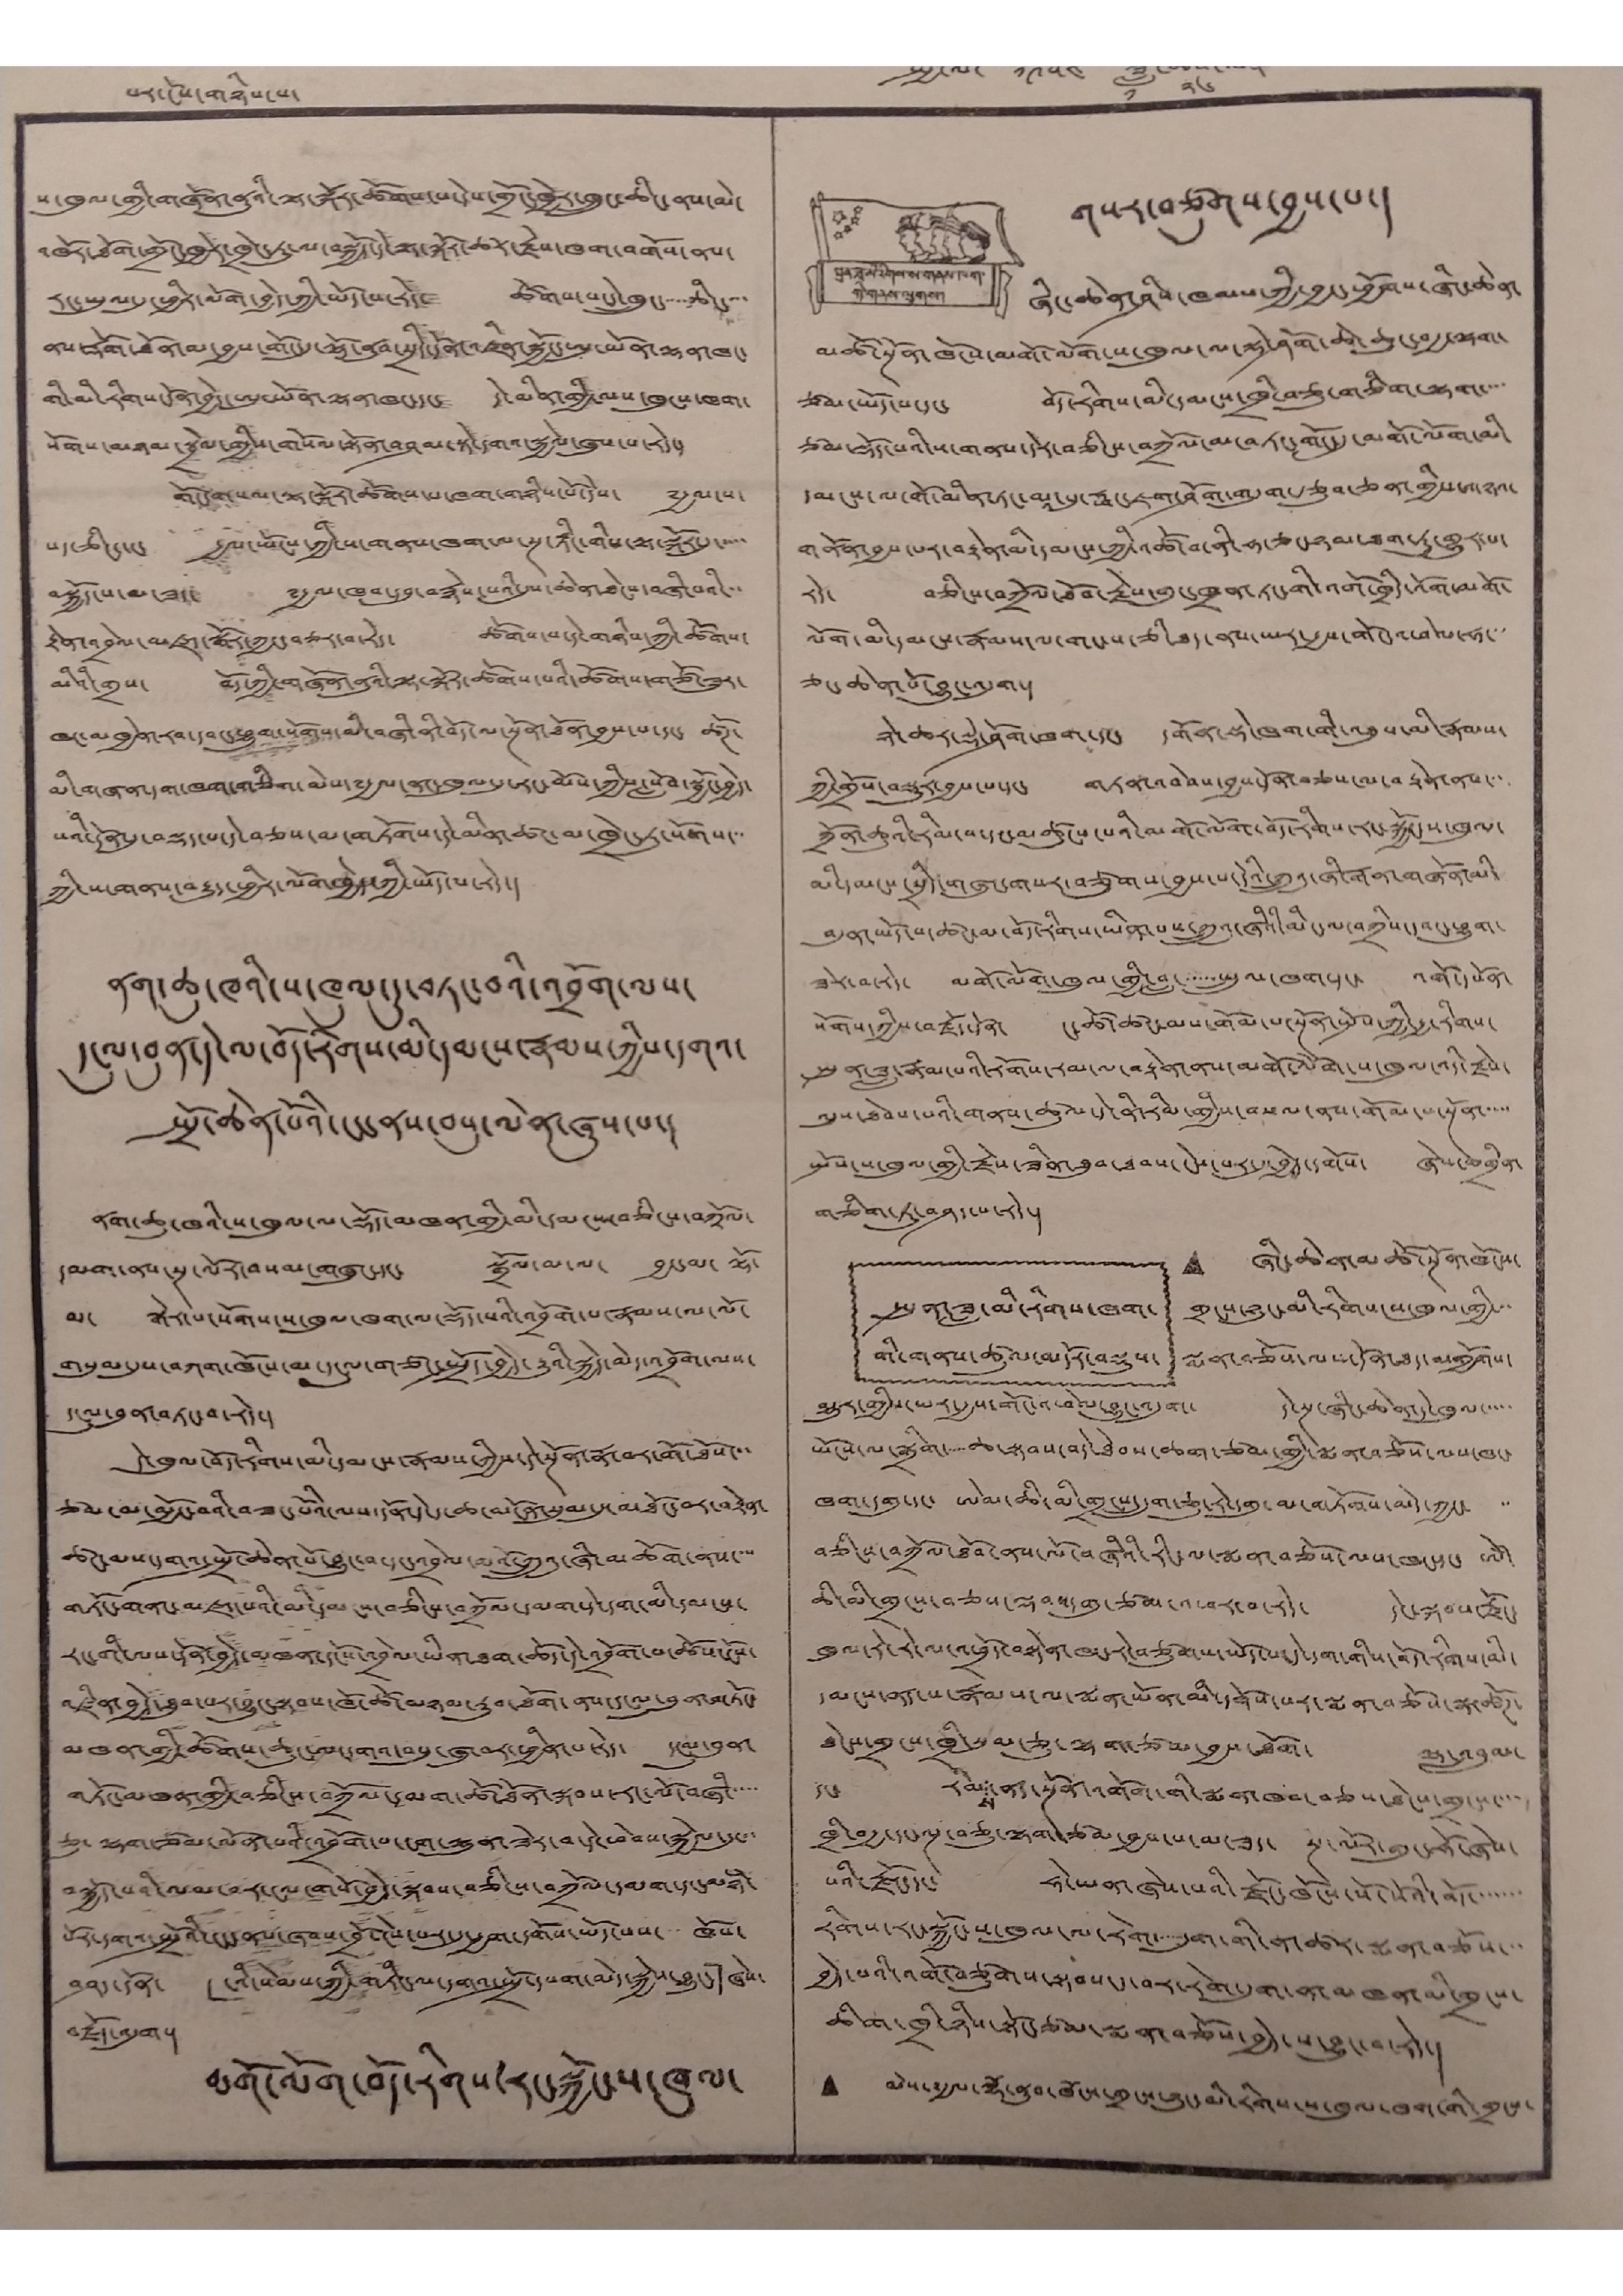པར་ངོས་གཉིས་པ་ སྤྱི་ལོ་༡༩༥༤་ཟླ་༡་ཚེས་༢༦་ལ་
ས་ཁུལ་གྱི་གཞོན་ནུའི་ལྟ་སྐོར་ཚོགས་པ་དེས་གྲོང་ཁྱེར་ཁྲུང་ཆིང་ནས་མེ་
འཁོར་ཐོག་གྲོང་ཁྱེར་ཁྲེང་ཏུ་ལ་བསྐྱོད་དེ་ལྟ་སྐོར་ཚར་རྗེས་ཁག་བགོས་ནས་
རང་ཡུལ་དུ་ཕྱིར་ལོག་བྱེད་ཀྱི་ཡོད་པ་རེད་ ཚོགས་པ་དེ་ཁྲུང་ཆིང་་
ནས་རྡོག་ཐོན་མ་བྱས་གོང་དུ་ལྷོ་ནུབ་སྲིད་དོན་འཛིན་སྐྱོང་ཨུ་ཡོན་ལྷན་ཁང་
གི་མི་རིགས་དོན་བྱེད་ཨུ་ཡོན་ལྷན་ཁང་དང་ དེ་མིན་གྱི་ལས་ཁུངས་ཁག་
སོགས་མཉམ་སྦྲེལ་གྱིས་གསོལ་སྟོན་བཤམ་སྟེ་དགའ་སྐྱེལ་ཞུས་པ་རེད་།
གོང་གསལ་ལྟ་སྐོར་ཚོགས་པ་ཁག་གཉིས་པོ་དེས་ ༸རྒྱལ་ས་
པད་ཅིང་དང་ རྒྱལ་ཡོངས་ཀྱི་ས་གནས་ཁག་ལ་སྔ་རྟིང་གིས་ལྟ་སྐོར་དུ་་་་་
བསྐྱོད་པ་མ་ཟད་ ༸རྒྱལ་ཁབ་དབུ་བརྙེས་པའི་དུས་ཆེན་ཐེངས་བཞི་པའི་་་
རྟེན་འབྲེལ་མཛད་སྒོར་ཀྱང་བཅར་བ་རེད་ ཚོགས་པ་དེ་གཉིས་ཀྱི་ཚོགས་
མིའི་གྲས་ བོད་ཀྱི་གཞོན་ནུའི་ལྟ་སྐོར་ཚོགས་པའི་ཚོགས་གཙོ་ཟུར་
ཁང་མཁྱེནན་རབ་དབང་ཕྱུག་སོགས་མི་བཞི་ནི་བོད་ལ་སྔོན་ཐོན་བྱས་པ་དང་ ཚོཊ་
མི་གཞན་དག་གཅིག་མེས་༸རྒྱལ་ནང་ཁུལ་དུ་རང་མོས་ཀྱིས་སློབ་སྦྱོང་བྱེད་
པའི་དོན་དུ་བསྡད་པ་དེ་བཅས་མ་གཏོགས་དེ་མིན་ཚང་མ་ཁྲེང་ཏུ་སོགས་་་
ཀྱི་ས་གནས་བརྒྱུད་ཕྱིར་ལོག་ཁྱེད་ཀྱི་ཡོད་པ་རེད་།
ནག་ཆུ་ཁའི་ས་ཁུལ་དུ་བཏང་བའི་འབྲོག་ལས་
དངུལ་བུན་དེ་ལ་བོད་རིགས་མི་དམངས་རྣམས་ཀྱིས་དགའ་
སྤྲོ་ཆེན་པོའི་ངང་ནས་བསུ་ལེན་ཞུས་པ་།
ནག་ཆུ་ཁའི་ས་ཁུལ་ལ་སྡོད་མཁན་གྱི་མི་དམངས་བཅིངས་བཀྲོལ་
དམག་ནས་སྔ་ལོར་བསམ་གཞུང་དང་ སྒྲོལ་མ་ལ་ བྱང་མ་ ལྷོ་
མ་ སྒེར་པ་སོགས་ས་ཁུལ་ཁག་ལ་སྡོད་སའི་འབྲོག་པ་རྣམས་ལ་ལོ་
གསུམ་དུས་བཀག་ཁོངས་མ་དངུལ་གཙང་སྤྲོད་བྱེད་རྒྱུའི་སྐྱེད་མེད་འབྲོག་ལས་
དངུལ་བུན་བཏང་བ་རེད་།
དེ་ཁུལ་བོད་རིགས་མི་དམངས་རྣམས་ཀྱིས་དེ་སྔོན་རྣ་བར་གོ་ཐོས་་་
ཙམ་མ་མྱོང་བའི་བཟང་པོའི་ལས་དོན་དེ་ད་ཆ་མངོན་སུམ་དུ་མཐོང་བར་བརྟེན་
ཚང་མས་དགའ་སྤྲོ་ཆེནཔོ་བྱུང་བ་དང་འབྲེལ་མའོ་ཀྲུའུ་ཞི་མཆོག་ནས་་་
གཏོང་གནང་མཛད་པའི་མི་དམངས་བཅིངས་བཀྲོལ་དམག་དེ་དག་མི་དམངས་
རང་གི་ལས་དོན་བྱེད་མཁན་དངོས་འབྲེལ་ཡིན་ཐག་ཆོད་དེ་འབྲོག་པ་ཚོས་ངོས་
འཛིན་བྱེད་ཐུབ་པར་བྱུང་སྟབས་ཁོ་ཚོ་མཉམ་རུབ་ཐོག་ནས་དངུལ་བུན་གཏོང་
མཁན་གྱི་ཚོགས་ཆུང་ལ་དགའ་བསུ་ཞུ་བར་ཕྱིན་པ་རེད་ དངུལ་བུན་
གཏོང་མཁན་གྱི་བཅིངས་བཀྲོལ་དམག་ཚོ་ཐོན་སྐབས་རང་ལོ་བཞི་་་་
ཅུ་ ལྷག་ཙམ་ལོན་པའི་འབྲོག་པ་ངག་ལྷུན་ཟེར་བ་དེ་ཕེབས་སྐྱེལ་དུ་་་
བསྐྱོད་པའི་ལམ་བར་ངལ་གསོ་བྱེད་སྐབས་བཅིངས་བཀྲོལ་དམག་དང་མཉཾ་
སོར་དགའ་སྤྲོའི་ངང་ནས་ཞབས་བྲོ་ངེས་པར་དུ་རྒྱག་དགོས་ཡོད་པས་ ཁོས་
བཤད་དོན་ "ངའི་སེམས་ཀྱི་གཏིང་ལ་དགའ་སྤྲོ་དཔག་མེད་སྐྱེས་བྱུང་" ཞེས་
བརྗོད་འདུག་།
མགོ་ལོག་བོད་རིགས་རང་སྐྱོང་ས་ཁུལ་
སྤུན་ཟླ་མི་རིགས་ས་གནས་ཁག་
གི་གནས་ལུགས་
གསར་བཙུགས་བྱས་པ་།
ཞིང་ཆེན་ཤིས་ཁམས་ཀྱི་བྱང་ཕྱོགས་ཞིང་ཆེན་
མཚོ་སྔོན་ཁོངས་མགོ་ལོག་ས་ཁུལ་ལྡེ་ཤོག་ཆེ་ཆུང་བརྒྱ་ལྷག་
ཙམ་ཡོད་པ་དང་ བོད་རིགས་མི་དམངས་ཁྲི་བཅུ་གཅིག་ལྷག་་་་
ཙམ་སྡོད་པའི་ས་གནས་དེར་བཅིངས་བཀྲོལ་མ་བཏང་གོང་དུ་མགོ་ལོག་མི་
དམངས་ལ་གོ་མིན་ཏང་མ་པུ་ཧྥང་ཇག་ཤོག་གདུག་རྩུབ་ཅན་གྱིས་གཉའ་
གནོན་བྱས་པར་བརྟེན་མི་དམངས་ཀྱི་འཚོ་བ་ནི་ཧ་ཅང་ཉམ་ཐག་ཏུ་གྱུར་པ་
རེད་ བཅིངས་བཀྲོལ་ཐོབ་རྗེས་གུང་ཁྲན་ཏང་གི་འགོ་ཁྲིད་འོག་མགོ་
ལོག་མི་དམངས་རྣམས་ལ་གང་ས་ཅི་ཐད་ནས་ཡར་རྒྱས་གོང་འཕེལ་ཧ་་་
ཅང་ཆེན་པོ་བྱུང་འདུག་།
ཉེ་ཆར་སྡེ་ཤོག་ཁག་དང་ དགོན་སྡེ་ཁག་གི་འཐུས་མི་རྣམས་
ཀྱི་གྲོས་བསྡུར་བྱས་པ་དང་ གཏན་འབེབས་བྱས་དོན་བཅས་ལ་བརྟེན་ནས་་་
ཀྲོན་ཆུའི་རིམ་པ་དང་མཚུངས་པའི་མགོ་ལོག་བོད་རིགས་རང་སྐྱོང་ས་ཁུལ་
མི་དམངས་སྲིད་གཞུང་གསར་བཙུགས་བྱས་པ་དེའི་ཀྲུའུ་ཞི་རྒན་གཞོན་མི་
བདུན་ཡོད་པ་ཚང་མ་བོད་རིགས་ཡིན་པས་ཀྲུའུ་ཞིའི་མི་ལ་བཀྲིས་དབང་ཕྱུག་
ཟེར་བ་རེད་ མགོ་ལོག་ཁུལ་གྱི་བླ་་་་་་སྤྲུལ་ཁག་དང་ འགོ་དཔོན་
སོགས་ཀྱིས་བརྗོད་དོན་ ང་ཚོ་ཚང་མས་གོམ་པ་སྔོན་སྤོས་ཀྱི་རྒྱ་རིགས་
སྤུན་ཟླ་རྣམས་པའི་རོགས་རམ་ལ་བརྟེན་ནས་མགོ་ལོག་ས་ཁུལ་འདི་རྗེས་
ལུས་ཐེབས་པའི་གནས་ཚུལ་དེ་ནི་རིམ་གྱིས་བསལ་ནས་གོམ་པ་སྔོན་་་་་
སྤོས་ས་ཁུལ་གྱི་རྗེས་ཟིན་ཐུབ་ཐབས་ངེས་པར་དུ་བྱེད་དགོས་ ཞེས་མགྲིན་
གཅིག་ཏུ་བཤད་པ་རེད་།
སྤུན་ཟླ་མི་རིགས་ཁག་
གི་གནས་ཚུལ་མདོར་བསྡུས་
• ཞིང་ཆེན་མཚོ་སྔོན་ཁོངས་
གྲངས་ཉུང་མི་རིགས་ས་ཁུལ་གྱི་་་
སྨན་བཅོས་ལས་དོན་ཐད་མགྱོགས་
མྱུར་གྱིས་ཡར་རྒྱས་གོང་འཕེལ་བྱུང་འདུག་ དེ་སྔ་ཞིང་ཆེན་དེ་ཁུལ་་་་་
ཡོངས་ལ་སྒྲིག་་་་་ཆ་སྟབས་བདེ་ཐེབས་ཆག་ཙམ་གྱི་སྨན་བཅོས་ལས་ཁང་
ཁག་དགུ་དང་ ཨེམ་ཆི་མི་གྲངས་དྲུག་ཅུ་རེ་དགུ་མ་གཏོགས་མེད་ཀྱང་ ་་
བཅིངས་བཀྲོལ་ཐོབ་ནས་ལོ་བཞིའི་རིང་ལ་སྨན་བཅོས་ལས་ཁང་དང་ ཨེཾ་
ཆི་མི་གྲངས་བཅས་ལྡབས་དགུ་ཙམ་འཕར་བ་རེད་ དེང་སྐབས་རྫོང་
ཁུལ་རེ་རེ་ལ་འཕྲོད་བསྟེན་ཁང་རེ་བཙུགས་ཡོད་པ་དེ་དག་གིས་བོད་རིགས་མི་
དམངས་ནད་པ་རྣམས་ལ་སྨན་ཡོན་མི་དགོས་པར་སྨན་བཅོས་སྣ་ཚོཊ་
ཐེངས་གྲངས་ཁྲི་སུམ་ཅུ་ལྷག་ཙམ་བྱས་ཐོག་ ལྷ་འབྲུམ་
དང་ རིམ་ནད་སྔོན་འགོག་གི་སྨན་ཁབ་བཅས་ཐེངས་གྲངས་་་་
ས
ཁྲི་བརྒྱ་དང་ལྔ་བཅུ་ལྷག་ཙམ་བྱས་པ་མ་ཟད་ སྔ་ལོར་གུང་ཧོ་ཞེས་
པའི་རྫོང་དང་ ཧེ་ཡན་ཞེས་པའི་རྫོང་ཁོངས་སོ་སོའི་བོད་་་་་་་
རིགས་རང་སྐྱོང་ས་ཁུལ་ལ་རེག་་་་་དུག་གི་ན་ཚར་སྨན་བཅོས་་་
བྱེད་པའི་འགོ་བཙུགས་སྟབས་ད་བར་རེག་དུག་ན་མཁན་མི་གྲངས་
ཆིག་ཁྲི་ཉིས་སྟོང་ཙམ་སྨན་བཅོས་བྱེད་ས་བྱུང་བ་རེད་།
• མེས་༸རྒྱལ་ལྷོ་ནུབ་ཁོངས་གྲངས་ཉུང་མི་རིགས་ས་ཁུལ་ཁག་གི་གྲངས་
